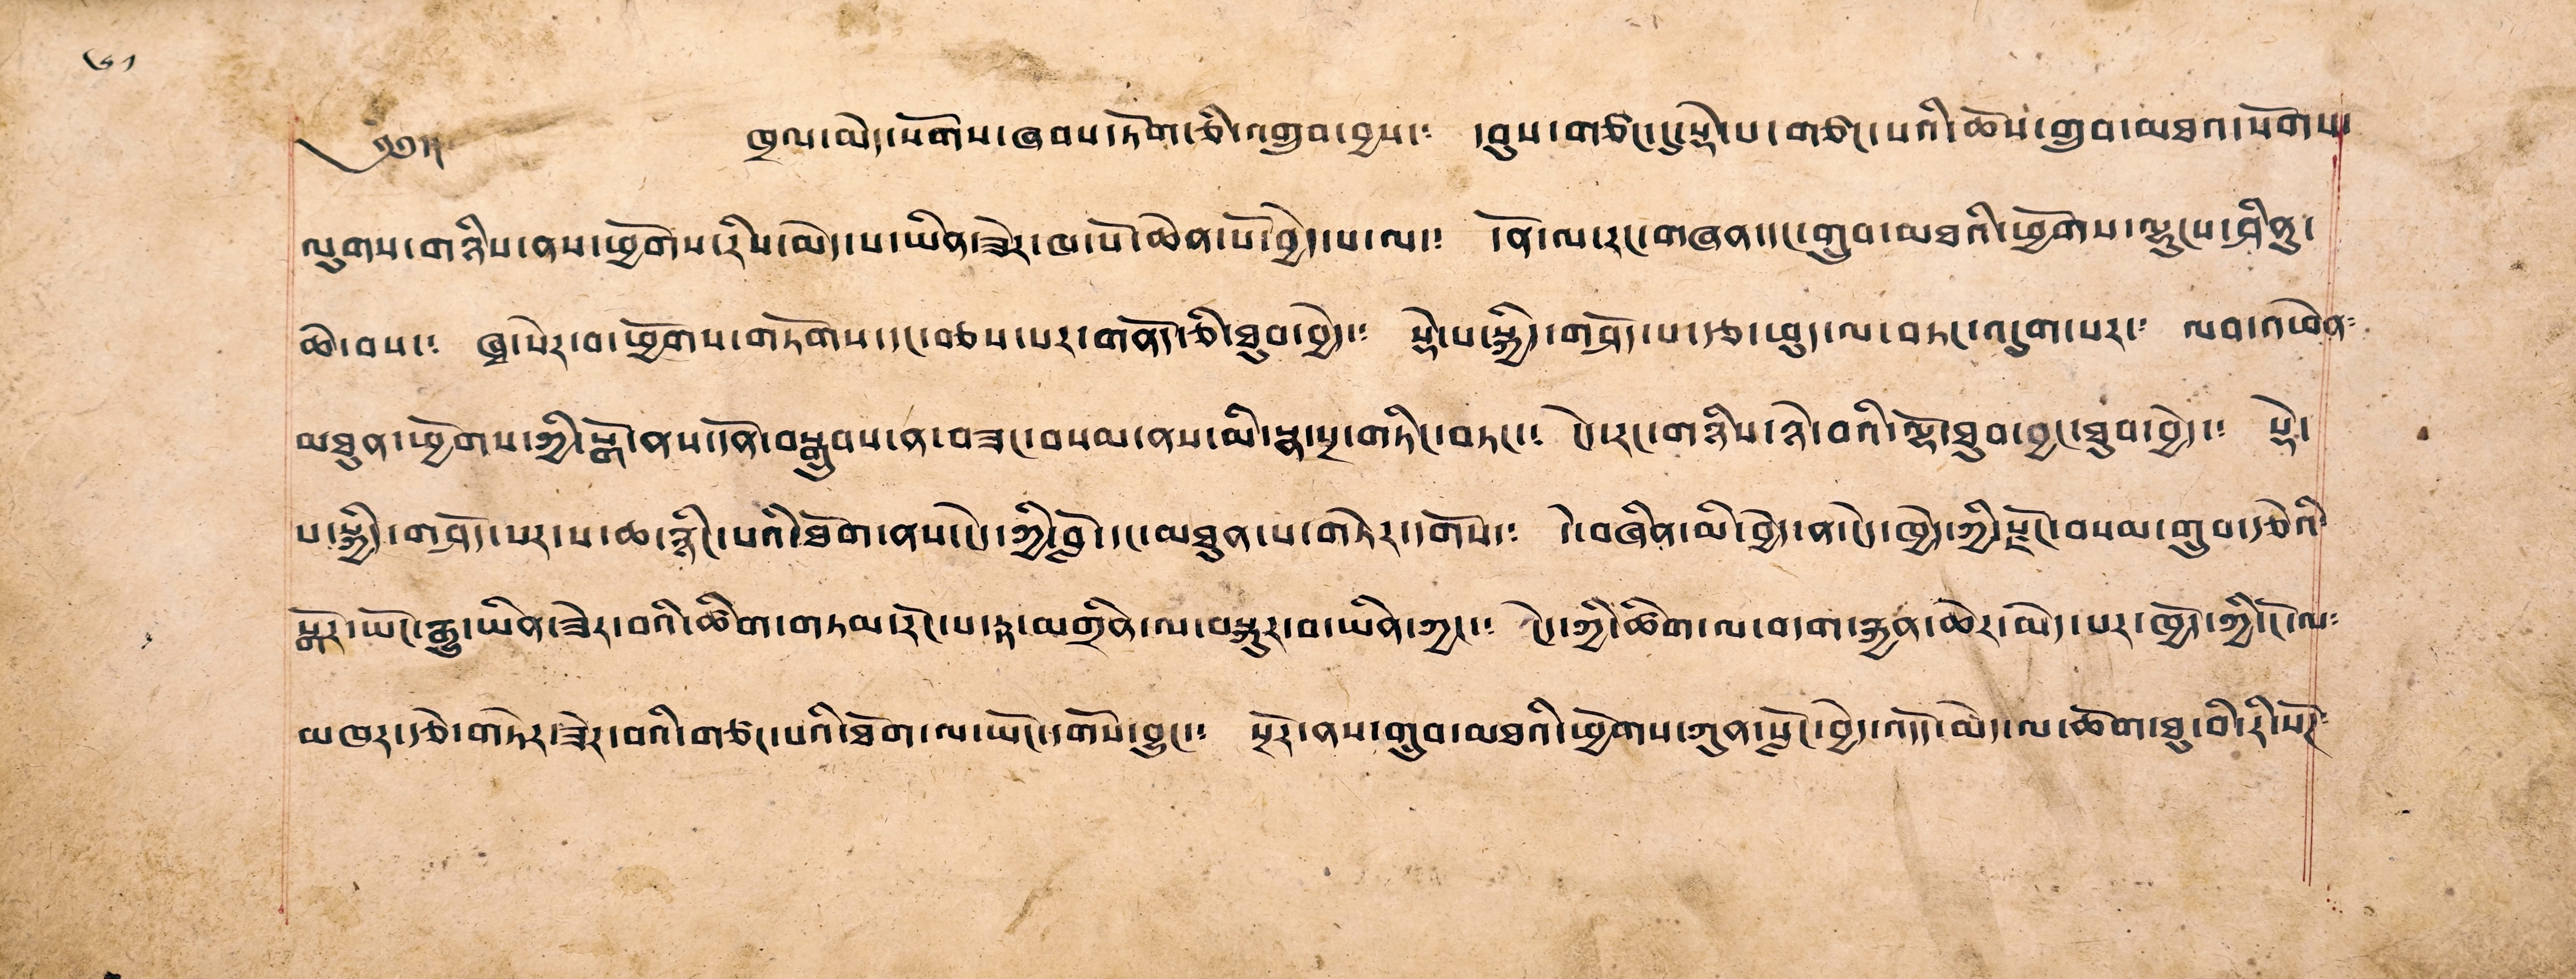༄༅།། ཁྲལ་མེད་སོགས་ཞབས་ཏོག་ཅི་འགྲུབ་བྱས་། དབུས་གཙང་དུ་སྡེ་པ་གཙང་པའི་ཆོས་གྲུབ་མཐའ་སོགས་
ལུགས་གཉིས་ནས་ཕྱོགས་རིས་མེད་པ་ཡིན་ཟེར་ཁ་པོ་ཆེན་པོ་བྱེད་པ་ལ་། དོན་ལ་རང་གཞན་དང་གྲུབ་མཐའི་ཕྱོགས་ལྷུངས་ཤིནུ་
ཆེ་བས་། ཞྭ་སེར་བ་ཕྱོགས་གཏོགས་དང་བཅས་པར་གནོད་ཅི་ཐུབ་བྱེད་། སྡེ་པ་སྐྱིད་གཤོད་པ་རྩ་ཕུད་ལ་བཏང་འདུག་པར་། ལབ་འཕེན་
མཐུན་ཕྱོགས་ཀྱི་སྒོ་ནས་དོན་བསྒྲུབས་ན་བཟང་བསམ་ནས་མི་སྣ་སྔ་གཏིང་བཏང་། ངེད་རང་གཉིས་ཉེ་བའི་ལྷོ་ཐུབ་བྱང་ཐུབ་བྱེད་། སྡེ་
པ་སྐྱིད་གཤོད་པར་ས་ཆ་རྙིང་པའི་ཐོག་ནས་ངེད་ཀྱི་བློ་དང་མཐུན་པ་གཏེར་དགོས་། དེ་བཞིན་མི་བྱེད་ན་ངེད་ཁྱེད་ཀྱི་རྫོང་བསམ་གྲུབ་རྩེའི་
སྒོར་ཡོང་རྒྱུ་ཡིན་ཟེར་བའི་ཚིག་གཏམ་རོང་པ་རྟ་མགྲིན་ལ་བསྐུར་བ་ཡིན་ཀྱང་། ངེད་ཀྱི་ཚིག་ལ་བདག་རྐྱན་ཆེར་མེད་པར་ཁྱོད་ཀྱི་ངོ་ལ་
མཁར་རྩེ་གཏེར་ཟེར་བའི་གཙང་པའི་ཐོག་ལ་ཡོང་དགོས་བྱུང་། སྔོར་ནས་གྲུབ་མཐའི་ཕྱོགས་ཀུན་སློང་བྱེད་འདོད་མེད་ལ་ཆོག་ཐུ་བི་རི་སོཊ་
